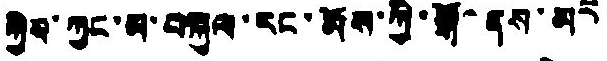ཀྱིས་ཀྱང་མ་བསྐྱལ་རང་མོས་ཀྱི་སྒོ་ནས་མར
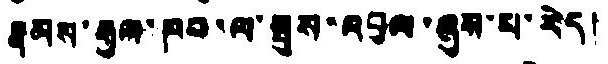རྣམས་རྒྱལ་ཁབ་ལ་སྤུས་འབུལ་ཞུས་པ་རེད།
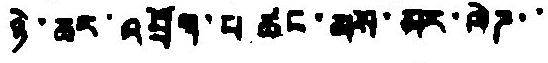ཉེ་ཆར་འབྲོག་པ་ཚང་མས་མར་ལེཌ་་
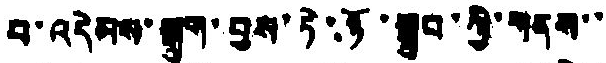པ་འདེམས་སྒྲུག་བྱས་ཏེ་ཉོ་སྒྲུབ་ཀྱི་གནས་་
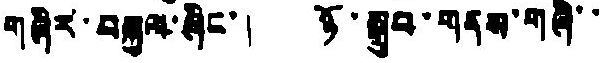གཞིར་བསྐྱལ་ཞིང་། ཉོ་སྒྲུབ་གནས་གཞི་་
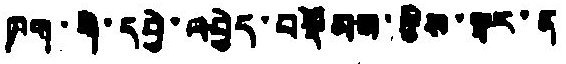ཁག་གི་དབྱེ་འབྱེད་བསྡོམས་རྩིས་ལྟར་ན
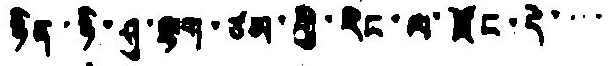ཉིན་ཉི་ཤུ་ལྷག་ཙམ་གྱི་རིང་ལ་རྫོང་དེ་་་་
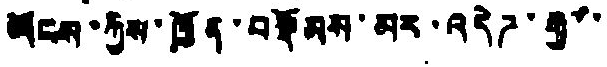ཡོངས་ཀྱིས་ཁྱོན་བསྡོམས་མར་འདེཌ་རྒྱ་་
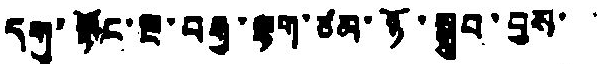དགུ་སྟོང་ལྔ་བརྒྱ་ལྷག་ཙམ་ཉོ་སྒྲུབ་བྱས་་་
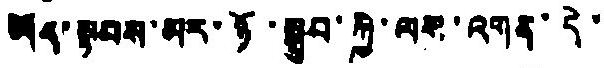ཡོད་སྟབས་མར་ཉོ་སྒྲུབ་ཀྱི་ལས་འགན་དེ་
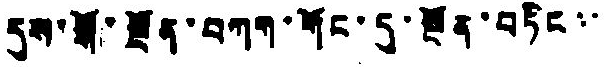དུས་སྒོ་སྔོན་བཀག་གོང་དུ་སྔོན་བཏིང་་་
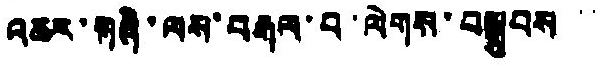འཆར་གཞི་ལས་བརྒལ་བ་ལེགས་བསྒྲུབས་་
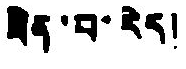ཟིན་པ་རེད།
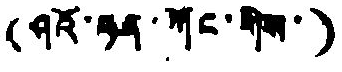(ཤའོ་ཧན་ཀོང་གིས་)
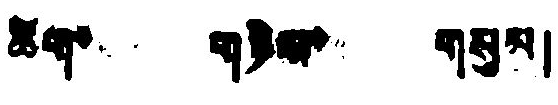ཚིག་ གཉིས་ གསུམ།
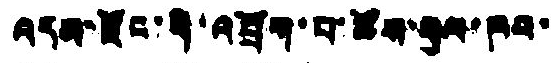འདས་རྫོང་གི་འབྲོག་པ་ཚོས་རྒྱལ་ཁབ་
